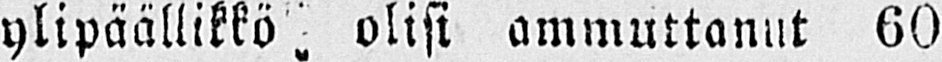ylipäällikkö olisi ammuttanut 60
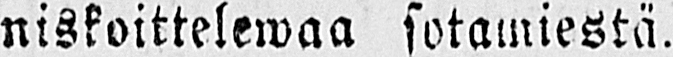niskoittelewaa sotamiestä.
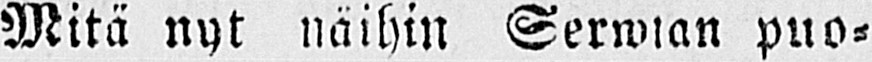Mitä nyt näihin Serwian puo-
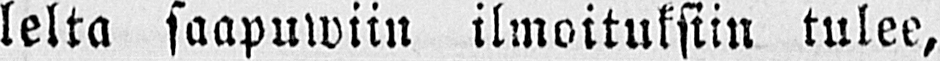lelta saapuwiin ilmoituksiin tulee,
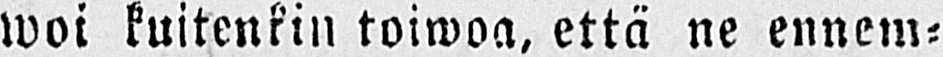woi kuitenkin toiwoa, että ne ennem-
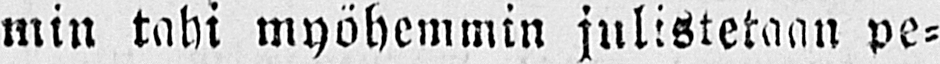min tahi myöhemmin julistetaan pe-
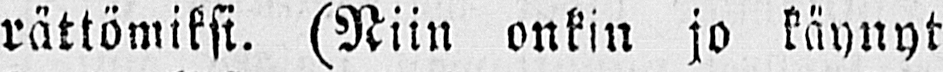rättömiksi. (Niin onkin jo käynyt
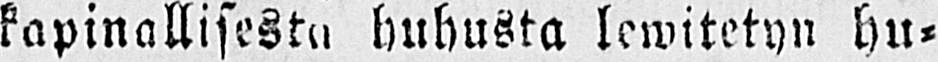kapinallisesta huhusta lewitetyn hu-
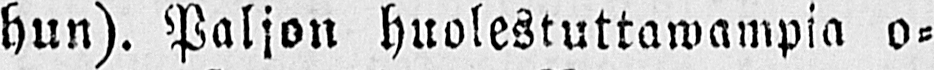hun). Paljon huolestuttawampia o-
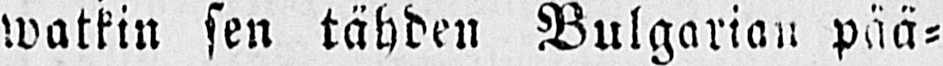watkin sen tähden Bulgarian pää-
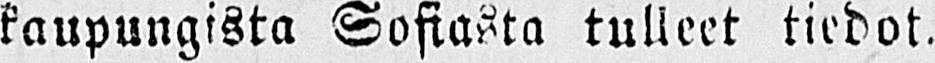kaupungista Sofiasta tulleet tiedot.
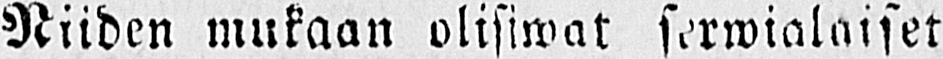Niiden mukaan olisiwat serwialaiset
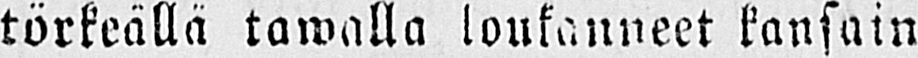törkeällä tawalla loukanneet kansain
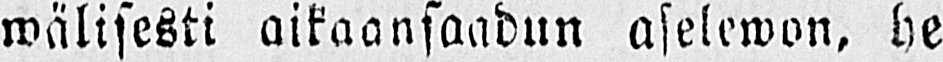wälisesti aikaansaadun aselewon, he
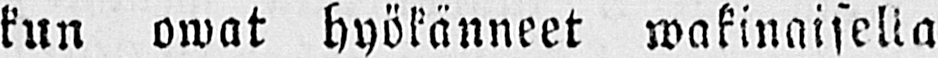kun owat hyökänneet wakinaisella
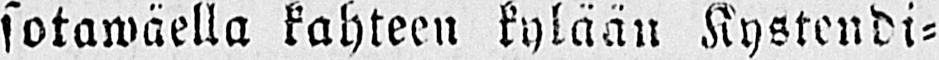sotawäella kahteen kylään Kystendi-
